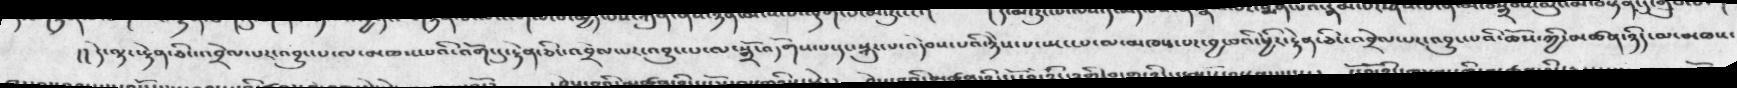།།  དེ་ལྟ་རྟེན་ཅིང་འབྲེལ་པར་འབྱུང་པ་ལ་མཁས་པའི་འོག་དུ་རྟེན་ཅིང་འབྲེལ་པར་འབྱུང་པ་ལ་སྒྲོ་འདོགས་པ་དང་སྐུར་པ་འདེབས་པའི་ཉེས་པ་སྤང་པ་ལ་མཁས་པར་བྱ་བའི་ཕྱིར་རྟེན་ཅིང་འབྲེལ་པར་འབྱུང་པའི་ཆོས་ཀྱི་མཚན་ཉིད་ལ་མཁས་
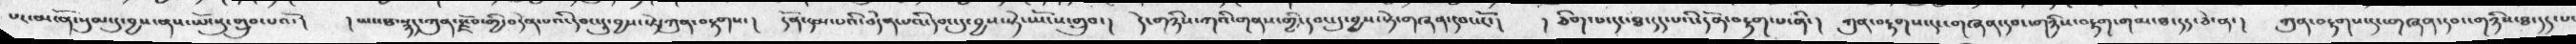པར་མངོན་སུམ་དུ་བྱས་ནས་ཡོངསུ་གྲུབ་པའོ་།  ། ཡང་ཐ་སྙད་ཀུན་རྫོབ་ཀྱི་བདེན་པའི་དབང་དུ་བྱས་པ་སྟེ་ཀུན་བརྟགགས་།  དོན་དམ་པའི་བདེན་པའི་དབང་དུ་བྱས་སྟེ་ཡོངས་གྲུབ་།  དེ་གཉིས་ཀའི་གནས་གྱི་དབང་དུ་བྱས་སྟེ་གཞན་དབང་ངོ་།  །  ཅིག་པ་དང་ཐ་དད་པའི་དོན་བརྟག་པ་ནི་།  ཀུན་བརྟགས་དང་གཞན་དབང་གཉིས་བརྟག་གམ་ཐ་སྙད་ཅེ་ན་།  ཀུན་བརྟགས་དང་གཞན་དབང་གཉིས་ཐ་དད་པ་
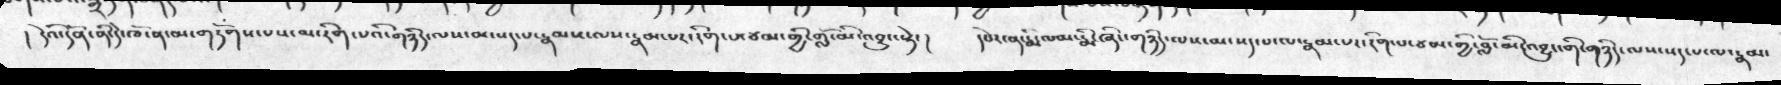།  དེའི་དོན་ནི་དེ་ཁོ་ན་མ་གཏོགས་པས་མ་རིག་པའི་གཉིད་ལས་མ་སད་པ་རྣམས་ལས་རྣམ་པར་རིག་པ་ཙམ་གྱི་གློ་མི་འབྱུང་སྟེ་།   དཔེར་ན་རྨི་ལམ་རྨི་ཞིང་གཉིད་ལས་མ་སད་པ་ལ་རྣམ་པར་རིག་པ་ཙམ་གྱི་བློ་མི་འབྱུང་གི་གཉིད་ལས་སད་པ་ལ་རྣམ་
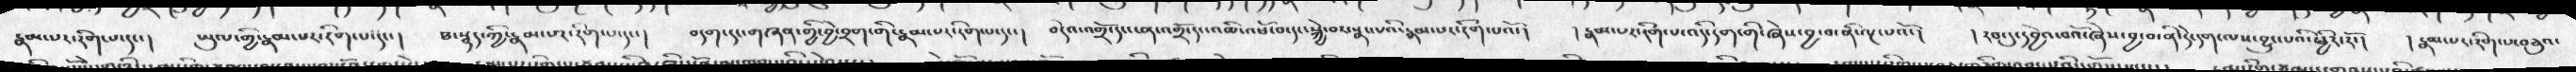རྣམ་པར་རིག་པ་ང་།   ཡུལ་གྱི་རྣམ་པར་རིག་པ་དང་།   ཐ་སྙད་ཀྱི་རྣམ་པར་རིག་པ་དང་།   བདག་དངང་གཞན་གྱི་བྱེ་བྲག་གི་རྣམ་པར་རིག་པ་དང་།   བདེའ་འགྲོ་དང་ངན་འགྲོ་དདདང་འཆི་འཕོ་བ་དང་སྐྱེ་བར་སྣང་པའི་རྣམ་པར་རིག་པའོ་།   ། རྣམ་པར་རིག་པ་འདི་དག་གི་ཞེས་བྱ་བ་ནི་ལྔ་པའོ་།   ། རབ་དུ་དབྱེའ་བའོ་ཞེས་བྱ་བ་ནི་དེ་དག་ལས་བྱུང་པའི་ཕྱིར་རོ་།   ། རྣམ་པར་རིག་པ་བཅུའ་
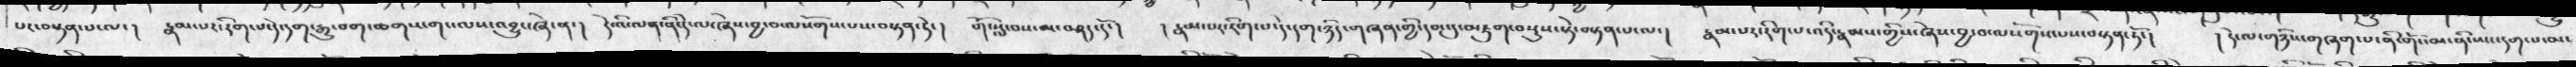པར་བསྟན་པ་ལ་།  རྣམ་པར་རིག་པ་དེ་དག་རྒྱུ་བག་ཆགས་གང་ལས་འབྱུང་ཞེ་ན་།  དེ་འི་ལན་ནི་དེ་ལ་ཞེས་བྱ་བ་ལསོགས་པས་བསྟན་ཏེ་།  གོ་སླེ་བས་མ་བཤད་དོ་།  ། རྣམ་པར་རིག་པ་དེ་དག་ཉིད་གཞན་གྱི་དབང་དུ་མཇུག་བསྡུས་སྟེ་བསྟན་པ་ལ་།  རྣམ་པར་རིག་པ་འདི་རྣམས་གྱིས་ཞེས་བྱ་བ་ལསོགས་པས་བསྟན་ཏོ་།  ། དེ་ལ་གཉིས་གཞག་པ་ནི་གོང་མ་ནི་ཡང་དག་པ་མ་
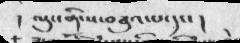། ལུང་ནི་ས་བཅུའ་པ་དང་  །
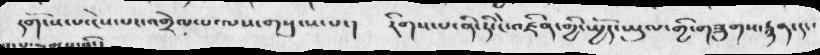དགོངས་པ་ངེས་པར་འགྲེལ་པ་ལས་གསུངས་པ་།  རིག་པ་ནི་ཏི་ངེ་འཛིན་གྱི་སྤྱོད་ཡུལ་གྱི་གཟུགས་རྙན་དང་
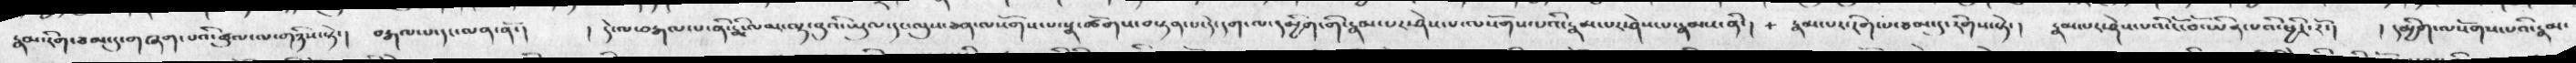རྣམ་རིབ་ཙམ་དུ་གཞག་པའི་ཚུལ་ལ་གཉིས་སྟེ་།  བརྒལ་པ་དང་ལན་ནོ་།   ། དེ་ལ་བརྒལ་པ་ནི་རྨི་ལམ་ལྟ་བུའི་ཡུལ་དང་ཅན་ལསོགས་པ་སྣ་ཚོགས་བསྟན་པ་དེ་དག་ལ་དམྱིག་གི་རྣམ་པར་ཤེས་པ་ལསོགས་པའི་རྣམ་པ་རྣམས་ནི་།   རྣམ་པར་རིག་པ་ཙམ་དུ་རིགས་སྟེ་།  རྣམ་པར་ཤེས་པའི་ངོ་བོ་ཡིན་པའི་ཕྱིར་རོ་།  ། དམྱིག་ལསོགས་པའི་རྣམ་
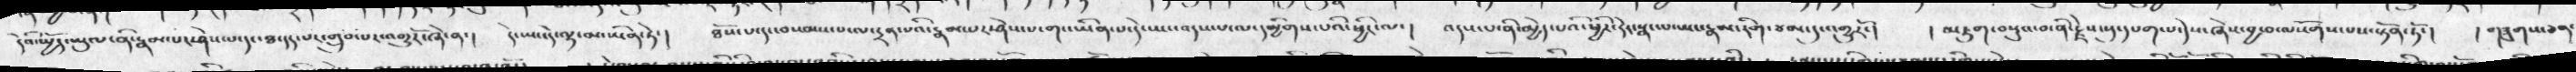དེའི་སྤྱོད་ཡུལ་ནི་རྣམ་པར་ཤེས་པ་དང་ཐ་དད་པར་གྲུབ་པར་འགྱུརོ་ཞེ་ན་།  དེ་ཡང་དེ་ལྟར་མ་ཡིན་ཏེ་།  ཐོས་པ་དང་བསམ་པ་ལ་དྲན་པའི་རྣམ་པར་ཤེས་པ་གང་ཡིན་པ་དེ་ཡང་འདས་པ་ལ་དམྱིགས་པའི་ཕྱིར་ལ་།  འདས་པ་ནི་མྱེད་པའི་ཕྱིར་དེར་སྣང་པ་ཡང་རྣམ་རིག་ཙམ་དུ་འགྱུརོ་།  ། མཇུག་བསྡུས་བ་ནི་རྗེས་སུ་དཔག་པ་དེ་ས་ཞེས་བྱ་བ་ལསོགས་པས་སྟོན་ཏོ་།  ། གཟུགས་ཅན
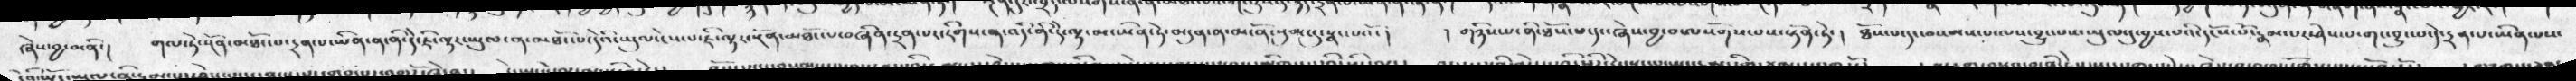ཞེས་བྱ་བ་ནི་།   གལ་ཏེ་སྔོན་མཐོང་པ་དྲན་པ་ཡིན་ན་ནི་དེ་ཇི་ལྟར་ཡུལ་ན་མཐོང་པ་དེའི་ཡུལ་ངེས་པ་ཇི་ལྟར་སྔོན་མཐོང་པ་བཞིན་དྲན་པར་རིགས་ན་འདི་ནི་དེ་ལྟ་མ་ཡིན་ཏེ་མདུན་ན་མངོན་སུམ་དུ་སྣང་པའོ་།   ། གཉིས་པ་ནི་ཐོས་པ་དང་ཞེས་བྱ་བ་ལསོགས་པས་སྟོན་ཏེ་།   ཐོས་པ་དང་བསམས་པ་ལས་བྱུང་པས་ཡུལ་དུ་བྱས་པའི་དངོས་པོ་རྣམ་པར་ཤེས་པ་གང་བྱུང་པ་དེ་དྲན་པ་ཡིན་པས་
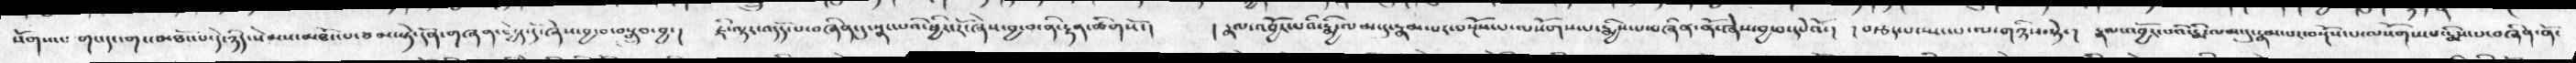སོགས་པ་གང་དང་གང་མཐོང་པ་དེ་ཉིད་སེམས་མཐོང་པ་ཙམ་སྟེ་དདོན་གཞན་མྱེད་དོ་ཞེས་བྱ་བ་བསྒྲུབ་བྱ་།   ཇི་ལྟར་འདོད་པ་བཞིན་དུ་སྣང་པའི་ཕྱིར་རོ་ཞེས་བྱ་བ་ནི་རྟན་ཚིགསོ་།    ། རྣམ་འབྱོར་པའི་རྨྱི་ལམ་དུ་རྣམ་པར་བསྔོས་པ་ལསོགས་པ་རྨྱིས་པ་བཞིན་ནོ་ཞེས་བྱ་བ་དཔེའོ་།   ། བརྩད་པ་སྤང་པ་ལ་གཉིས་སྟེ་།  རྣམ་འབྱོར་པའི་རྨི་ལམ་དུ་རྣམ་པར་བསྔོས་པ་ལསོགས་པ་རྨིས་པ་བཞིན་ནོ་
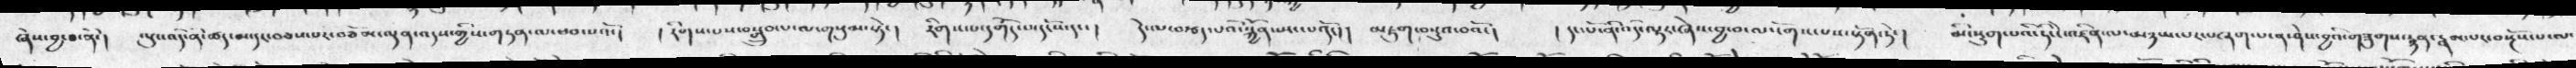ཞེས་བྱ་བ་སྟེ་།  ལུས་འདི་ནི་ཚད་མ་དང་བཅས་པར་བཅོམ་ལྡན་འདས་གྱིས་གཏན་ལ་ཕབ་པའོ་།   །  རིགས་པས་བསྒྲུབ་པ་ལ་གསུམ་སྟེ་།   རིགས་པ་དགོད་པ་དངོས་དང་།  དེ་ལ་འཐད་པའི་སྐྱོན་སྤང་པའོ་།   མཇུག་བསྡུའ་བའོ་།   །  དང་པོ་ནི་ལྟར་ཞེས་བྱ་བ་ལསོགས་པས་སྟོན་ཏེ་།  མི་སྡུག་པའི་ཏིང་ངེ་འཛིན་ལ་མཉམ་པར་བཞག་པ་ན་ཤེས་བྱའི་གཟུགས་རྙན་རྣམ་པར་བསྔོས་པ་ལ་
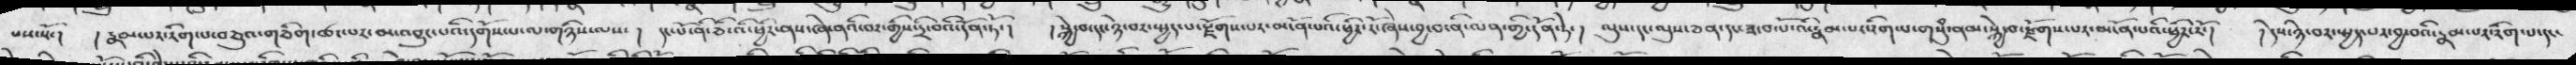པས་སོ་།   ། རྣམ་པར་རིག་པ་བཅུའ་གཅིག་ཚང་པར་མ་འབྱུང་པའི་དགོས་པ་ལ་གཉིས་ལས་།   དང་པོ་ནི་ཅི་འི་ཕྱིར་ནའི་བར་གྱིས་དྲི་བའི་དོན་ཏོ་།   ། སྐྱེ་བ་དང་ཉེ་བར་ཡྱད་པ་སྫོགས་པར་མངོན་པའི་ཕྱིར་རོ་ཞེས་བྱ་བ་ནི་ལན་གྱི་དོན་ཏེ་།   ལུས་དང་ལུས་ཅན་དང་ཟ་བ་པོ་འི་རྣམ་པར་རིག་པ་གསུཾ་ནམ་སྐྱེ་བ་རྗོགས་པར་མངོན་པའི་ཕྱིར་རོ་།   ། དེས་ཉེ་བར་ཡྱད་པར་བྱ་བའི་རྣམ་པར་རིག་པ་དང་
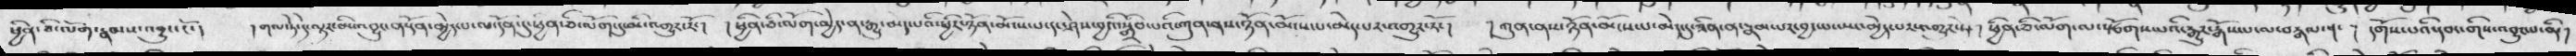ཕྱིན་ཅི་ལོག་རྣམས་འབྱུང་ངོ་།   ། གལ་ཏེ་དེ་ལྟར་མི་འབྱུང་ན་དོན་མྱེད་པ་ལ་དོན་དུ་ཕྱིན་ཅི་ལོག་དུ་མི་འགྱུར་རོ་།   ། ཕྱིན་ཅི་ལོག་མྱེད་ན་རྒྱུ་མེད་པའི་ཕྱིར་ཉོན་མོངས་པ་དང་ཤེས་བྱའི་སྒྲིབ་པའི་ཀུན་ནས་ཉོན་མོངས་པ་མེད་པར་འགྱུར་རོ་།   ། ཀུན་ནས་ཉོན་མོངས་པ་མེད་དུ་ཟིན་ན་རྣམ་པར་བྱང་པ་ཡང་མྱེད་པར་འགྱུར་ཏེ་།   ཕྱིན་ཅི་ལོག་ལ་སྩོགས་པའི་རྒྱུར་རྒོས་པ་ལ་བརྒལ་ན་།   དགོས་པའི་དབང་གིས་འབྱུང་པ་མི།
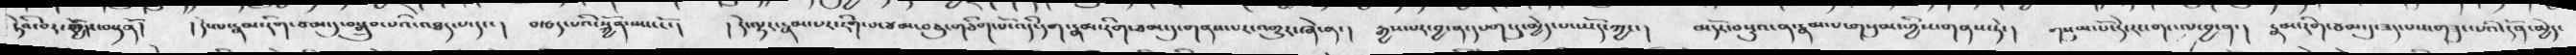རྟའི་བར་ཁྱོད་བསྟནོ་། ། དེ་ལ་རྣམ་རིག་ཙམ་དུ་བསྒྲུབ་པའི་འཐད་པ་དང་།   བརྩད་པའི་སྐྱོན་སྤང་ངོ་།  ། དེ་ལྟར་རྣམ་པར་རིག་པ་ཙམ་བཅུ་གཅིག་པོ་འདི་དག་རྣམ་རིག་ཙམ་དུ་གནས་པར་འགྱུར་ཞེ་ན་།   རྒྱས་པར་བྱ་ན་དཔག་དུ་མྱེད་པ་ཡོད་ཀྱང་།  མདོར་བསྡུའ་ན་རྣམ་པ་གསུམ་ཀྱི་གནས་ཏེ་།   གསུམ་པོ་དེ་རང་གང་ལ་བྱ་ན་།  རྣམ་རིག་ཙམ་དུ་ཟད་པས་གཟུང་པའི་དོན་མྱེད་
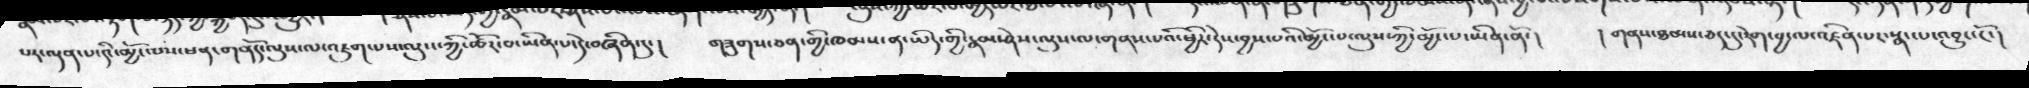པར་ལྡན་པ་འི་མྱོང་པས་ཕན་གནོད་ལུས་ལ་འཇུག་པས་ལུས་ཀྱི་ཚོར་བ་ཡིན་པ་དེ་བཞིན་དུ་།   གཟུགས་ཅན་གྱི་ཁམས་ན་ཡིད་གྱི་རྣམ་ཤེས་ལུས་ལ་གནས་པའི་ཕྱིར་དེས་བྱས་པའི་མྱོང་པ་ལུས་ཀྱི་མྱོང་པ་ཡིན་ནོ་།   ། གནས་ཐམས་ཅད་དུ་རེག་བྱ་ལ་འཛིན་པར་སྣང་པ་འབྱུང་ངོ་།
